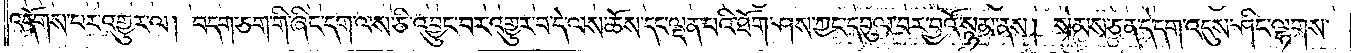འདོགས་པར་འགྱུར་ལ། བདག་ཅག་གི་ཞིང་དག་ལས་ཅི་འབྱུང་བར་འགྱུར་བ་དེ་ལས་ཆོས་དང་ལྡན་པའི་ཐོག་ཤས་ཀྱང་དབུལ་བར་བྱའོ་སྙམ་ནས། སེམས་ཅན་དེ་དག་འདུས་ཤིང་ལྷགས་
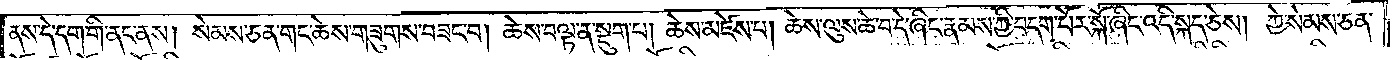ནས་དེ་དག་གི་ནང་ནས། སེམས་ཅན་གང་ཆེས་གཟུགས་བཟང་བ། ཆེས་བལྟ་ན་སྡུག་པ། ཆེས་མཛེས་པ། ཆེས་ལུས་ཆེ་བ་དེ་ཞིང་རྣམས་ཀྱི་བདག་པོར་སྐོ་ཞིང་འདི་སྐད་ཅེས། ཀྱེ་སེམས་ཅན་
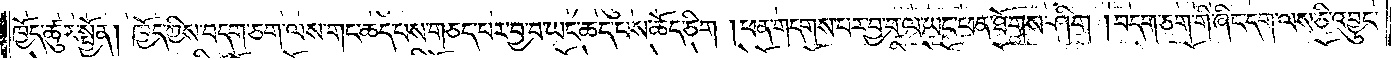ཁྱོད་ཚུར་སྤྱོན། ཁྱོད་ཀྱིས་བདག་ཅག་ལས་གང་ཆད་པས་གཅད་པར་བྱ་བ་ཡང་ཆད་པས་ཆོད་ཅིག །ཕན་གདགས་པར་བྱ་བ་ལ་ཡང་ཕན་ཐོགས་ཤིག །བདག་ཅག་གི་ཞིང་དག་ལས་ཅི་འབྱུང་
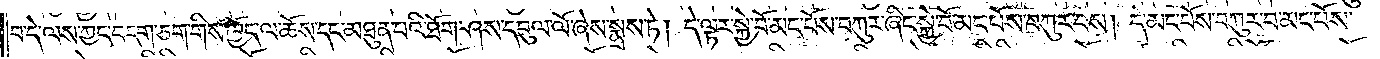བ་དེ་ལས་ཀྱང་བདག་ཅག་གིས་ཁྱོད་ལ་ཆོས་དང་མཐུན་པའི་ཐོག་ཤས་དབུལ་ལོ་ཞེས་སྨྲས་ཏེ། དེ་ལྟར་སྐྱེ་བོ་མང་པོས་བཀུར་ཞིང་སྐྱེ་བོ་མང་པོས་བཀུར་བས། དེ་མང་པོས་བཀུར་བ་མང་པོས་
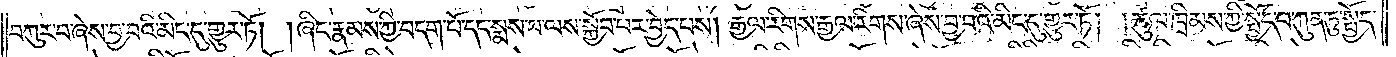བཀུར་བ་ཞེས་བྱ་བའི་མིང་དུ་གྱུར་ཏོ། །ཞིང་རྣམས་ཀྱི་བདག་པོ་དང་སྨས་པ་ལས་སྐྱོབ་པར་བྱེད་པས། རྒྱལ་རིགས་རྒྱལ་རིགས་ཞེས་བྱ་བའི་མིང་དུ་གྱུར་ཏོ། །ཚུལ་ཁྲིམས་ཀྱི་སྤྱོད་པ་ཀུན་ཏུ་སྤྱོད་
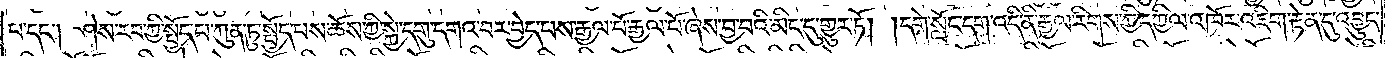པ་དང༌། ཤེས་རབ་ཀྱི་སྤྱོད་པ་ཀུན་ཏུ་སྤྱོད་པས་ཆོས་ཀྱི་སྐྱེ་དགུ་དགའ་བར་བྱེད་པས་རྒྱལ་པོ་རྒྱལ་པོ་ཞེས་བྱ་བའི་མིང་དུ་གྱུར་ཏོ། །དགེ་སློང་དག་འདི་ནི་རྒྱལ་རིགས་ཀྱི་དཀྱིལ་འཁོར་འཇིག་རྟེན་དུ་འབྱུང་
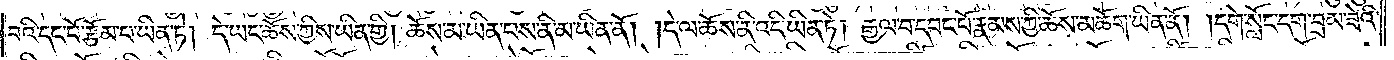བའི་དང་པོ་རྩོམ་པ་ཡིན་ཏེ། དེ་ཡང་ཆོས་ཀྱིས་ཡིན་གྱི། ཆོས་མ་ཡིན་པས་ནི་མ་ཡིན་ནོ། །དེ་ལ་ཆོས་ནི་འདི་ཡིན་ཏེ། རྒྱལ་བ་དབང་པོ་རྣམས་ཀྱི་ཆོས་མཆོག་ཡིན་ནོ། །དགེ་སློང་དག་བྲམ་ཟེའི་
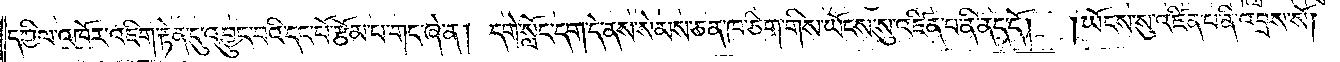དཀྱིལ་འཁོར་འཇིག་རྟེན་དུ་འབྱུང་བའི་དང་པོ་རྩོམ་པ་གང་ཞེ་ན། དགེ་སློང་དག་དེ་ནས་སེམས་ཅན་ཁ་ཅིག་གིས་ཡོངས་སུ་འཛིན་པ་ནི་ནད་དོ།<gap>།ཡོངས་སུ་འཛིན་པ་ནི་འབྲས་སོ།
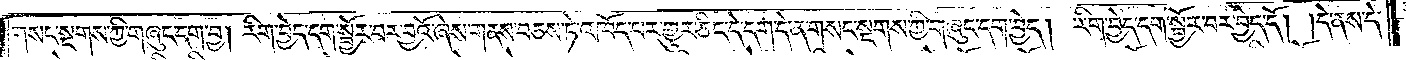གསང་སྔགས་ཀྱི་གཞུང་དག་བྱ། རིག་བྱེད་དག་སྦྱོར་བར་བྱའོ་ཞེས་གནས་བཅས་ཏེ་འཁོད་པར་གྱུར་ཅིང་དེ་དག་དེ་ན་གསང་སྔགས་ཀྱི་གཞུང་དག་བྱེད།  རིག་བྱེད་དག་སྦྱོར་བར་བྱེད་དོ། །དེ་ནས་དེ་
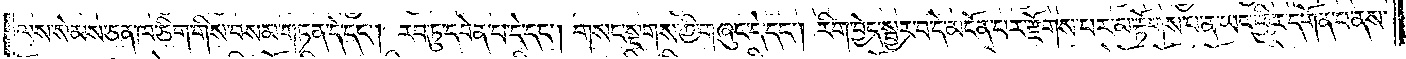ལས་སེམས་ཅན་ཁ་ཅིག་གིས་བསམ་གཏན་དེ་དང༌། རབ་ཏུ་དབེན་པ་དེ་དང༌། གསང་སྔགས་ཀྱི་གཞུང་དེ་དང༌། རིག་བྱེད་སྦྱར་བ་དེ་མངོན་པར་རྫོགས་པར་མ་རྟོགས་པ་ན་ཡང་ཕྱིར་དགོན་པ་ནས་
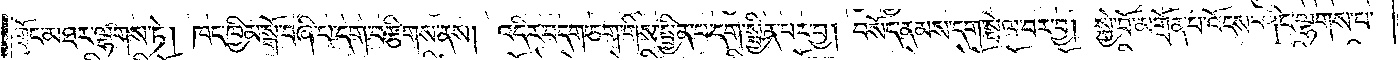གྲོང་མཐར་ལྷགས་ཏེ། ཁང་ཁྱིམ་སྒོ་བཞི་པ་དག་བརྩིགས་ནས། འདིར་བདག་ཅག་གིས་སྦྱིན་པ་དག་སྦྱིན་པར་བྱ། བསོད་ནམས་དག་སྤེལ་བར་བྱ། སྐྱེ་བོ་མགྲོན་པ་འོངས་ཤིང་ལྷགས་པ་
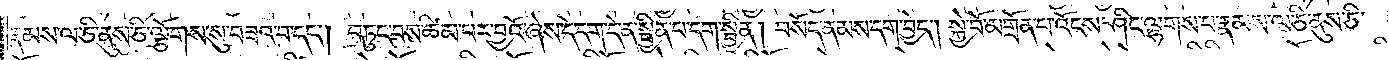རྣམས་ལ་ཅི་ནུས་ཅི་ལྕོགས་སུ་བཟའ་བ་དང༌། བཏུང་བས་ཚིམ་པར་བྱའོ་ཞེས་དེ་དག་དེ་ན་སྦྱིན་པ་དག་སྦྱིན། བསོད་ནམས་དག་བྱེད། སྐྱེ་བོ་མགྲོན་པ་འོངས་ཤིང་ལྷགས་པ་རྣམས་ལ་ཅི་ནུས་ཅི་
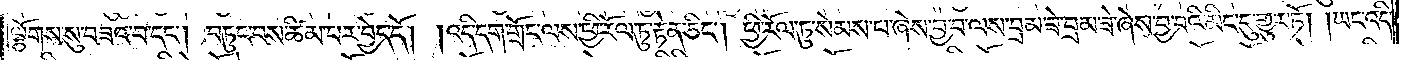ལྕོགས་སུ་བཟའ་བ་དང༌། བཏུང་བས་ཚིམ་པར་བྱེད་དོ། །འདི་དག་གྲོང་ལས་ཕྱི་རོལ་ཏུ་རྟེན་ཅིང༌། ཕྱི་རོལ་ཏུ་སེམས་པ་ཞེས་བྱ་བ་ལས་བྲམ་ཟེ་བྲམ་ཟེ་ཞེས་བྱ་བའི་མིང་དུ་གྱུར་ཏོ། །ཡང་འདི་
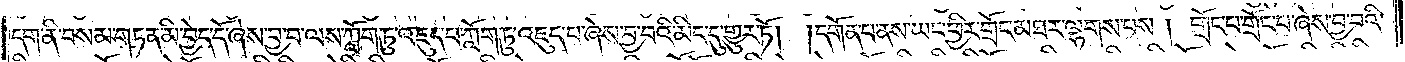དག་ནི་བསམ་གཏན་མི་བྱེད་དོ་ཞེས་བྱ་བ་ལས་ཀློག་ཏུ་འཇུད་པ་ཀློག་ཏུ་འཇུད་པ་ཞེས་བྱ་བའི་མིང་དུ་གྱུར་ཏོ། །དགོན་པ་ནས་ཡང་ཕྱིར་གྲོང་མཐར་ལྷགས་པས། གྲོང་པ་གྲོང་པ་ཞེས་བྱ་བའི་
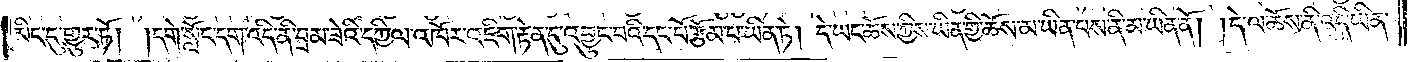མིང་དུ་གྱུར་ཏོ། །དགེ་སློང་དག་འདི་ནི་བྲམ་ཟེའི་དཀྱིལ་འཁོར་འཇིག་རྟེན་དུ་འབྱུང་བའི་དང་པོ་རྩོམ་པ་ཡིན་ཏེ། དེ་ཡང་ཆོས་ཀྱིས་ཡིན་གྱི་ཆོས་མ་ཡིན་པས་ནི་མ་ཡིན་ནོ། །དེ་ལ་ཆོས་ནི་འདི་ཡིན་
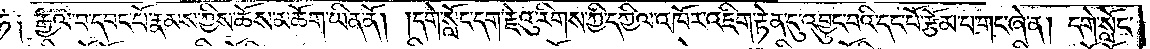ཏེ༑ རྒྱལ་བ་དབང་པོ་རྣམས་ཀྱིས་ཆོས་མཆོག་ཡིན་ནོ། །དགེ་སློང་དག་རྗེའུ་རིགས་ཀྱི་དཀྱིལ་འཁོར་འཇིག་རྟེན་དུ་འབྱུང་བའི་དང་པོ་རྩོམ་པ་གང་ཞེ་ན། དགེ་སློང་
